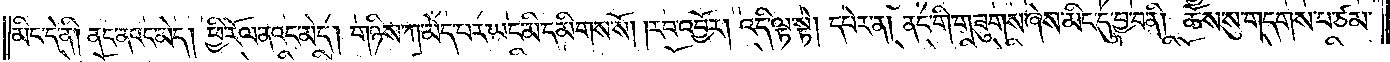མིང་དེ་ནི། ནང་ནའང་མེད། ཕྱི་རོལ་ནའང་མེད། གཉིས་ཀ་མེད་པར་ཡང་མི་དམིགས་སོ། །རབ་འབྱོར། འདི་ལྟ་སྟེ། དཔེར་ན། ནང་གི་གཟུགས་ཞེས་མིང་དུ་བྱ་བ་ནི། ཆོས་སུ་གདགས་པ་ཙམ་
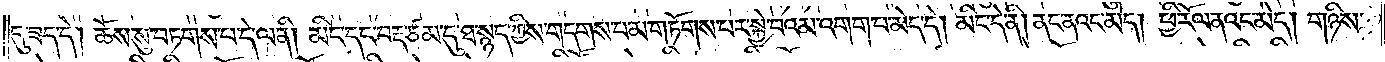དུ་ཟད་དེ། ཆོས་སུ་བཏགས་པ་དེ་ལ་ནི། མིང་དང་བརྡ་ཙམ་དུ་ཐ་སྙད་ཀྱིས་གདགས་པ་མ་གཏོགས་པར་སྐྱེ་བའམ་འགག་པ་མེད་དེ། མིང་དེ་ནི། ནང་ནའང་མེད། ཕྱི་རོལ་ནའང་མེད། གཉིས་
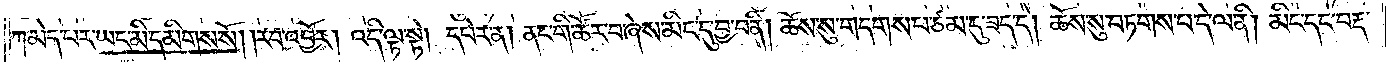ཀ་མེད་པར་ཡང་མི་དམིགས་སོ། །རབ་འབྱོར། འདི་ལྟ་སྟེ། དཔེར་ན། ནང་གི་ཚོར་བ་ཞེས་མིང་དུ་བྱ་བ་ནི། ཆོས་སུ་གདགས་པ་ཙམ་དུ་ཟད་དེ། ཆོས་སུ་བཏགས་པ་དེ་ལ་ནི། མིང་དང་བརྡ་
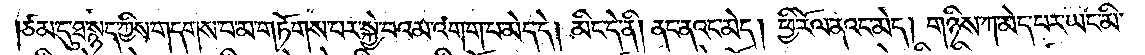ཙམ་དུ་ཐ་སྙད་ཀྱིས་གདགས་པ་མ་གཏོགས་པར་སྐྱེ་བའམ་འགག་པ་མེད་དེ། མིང་དེ་ནི། ནང་ནའང་མེད། ཕྱི་རོལ་ནའང་མེད། གཉིས་ཀ་མེད་པར་ཡང་མི་
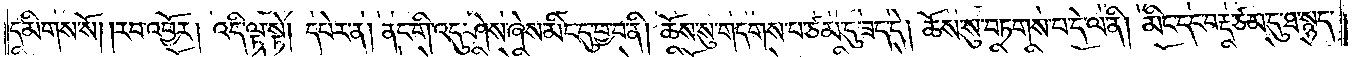དམིགས་སོ། །རབ་འབྱོར། འདི་ལྟ་སྟེ། དཔེར་ན། ནང་གི་འདུ་ཤེས་ཞེས་མིང་དུ་བྱ་བ་ནི། ཆོས་སུ་གདགས་པ་ཙམ་དུ་ཟད་དེ། ཆོས་སུ་བཏགས་པ་དེ་ལ་ནི། མིང་དང་བརྡ་ཙམ་དུ་ཐ་སྙད་
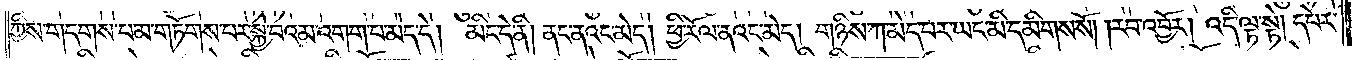ཀྱིས་གདགས་པ་མ་གཏོགས་པར་སྐྱེ་བའམ་འགག་པ་མེད་དེ། མིང་དེ་ནི། ནང་ནའང་མེད། ཕྱི་རོལ་ནའང་མེད། གཉིས་ཀ་མེད་པར་ཡང་མི་དམིགས་སོ། །རབ་འབྱོར། འདི་ལྟ་སྟེ། དཔེར་
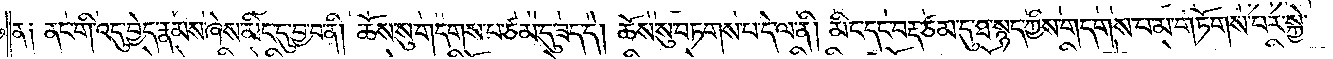ན༑ ནང་གི་འདུ་བྱེད་རྣམས་ཞེས་མིང་དུ་བྱ་བ་ནི། ཆོས་སུ་གདགས་པ་ཙམ་དུ་ཟད་དེ། ཆོས་སུ་བཏགས་པ་དེ་ལ་ནི། མིང་དང་བརྡ་ཙམ་དུ་ཐ་སྙད་ཀྱིས་གདགས་པ་མ་གཏོགས་པར་སྐྱེ་
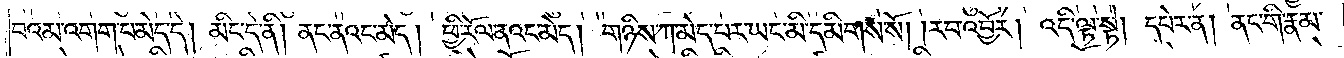བའམ་འགག་པ་མེད་དེ། མིང་དེ་ནི། ནང་ནའང་མེད། ཕྱི་རོལ་ནའང་མེད། གཉིས་ཀ་མེད་པར་ཡང་མི་དམིགས་སོ། །རབ་འབྱོར། འདི་ལྟ་སྟེ། དཔེར་ན། ནང་གི་རྣམ་
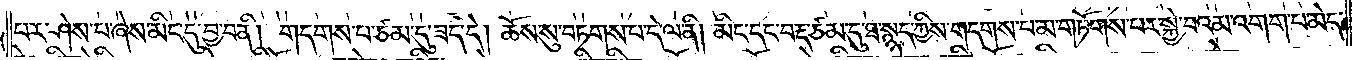པར་ཤེས་པ་ཞེས་མིང་དུ་བྱ་བ་ནི། གདགས་པ་ཙམ་དུ་ཟད་དེ། ཆོས་སུ་བཏགས་པ་དེ་ལ་ནི། མིང་དང་བརྡ་ཙམ་དུ་ཐ་སྙད་ཀྱིས་གདགས་པ་མ་གཏོགས་པར་སྐྱེ་བའམ་འགག་པ་མེད་
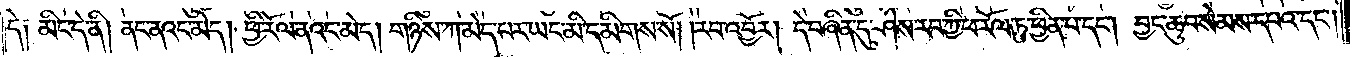དེ༑ མིང་དེ་ནི། ནང་ནའང་མེད། ཕྱི་རོལ་ནའང་མེད། གཉིས་ཀ་མེད་པར་ཡང་མི་དམིགས་སོ། །རབ་འབྱོར། དེ་བཞིན་དུ་ཤེས་རབ་ཀྱི་ཕ་རོལ་ཏུ་ཕྱིན་པ་དང༌། བྱང་ཆུབ་སེམས་དཔའ་དང༌།
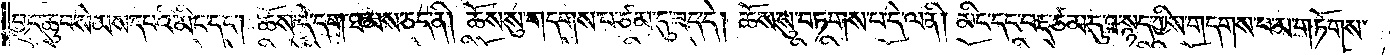བྱང་ཆུབ་སེམས་དཔའི་མིང་དང༌། ཆོས་དེ་དག་ཐམས་ཅད་ནི། ཆོས་སུ་གདགས་པ་ཙམ་དུ་ཟད་དེ། ཆོས་སུ་བཏགས་པ་དེ་ལ་ནི། མིང་དང་བརྡ་ཙམ་དུ་ཐ་སྙད་ཀྱིས་གདགས་པ་མ་གཏོགས་
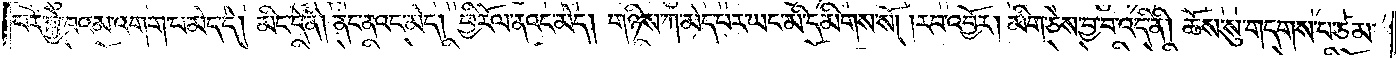པར་སྐྱེ་བའམ་འགག་པ་མེད་དེ། མིང་དེ་ནི། ནང་ནའང་མེད། ཕྱི་རོལ་ནའང་མེད། གཉིས་ཀ་མེད་པར་ཡང་མི་དམིགས་སོ། །རབ་འབྱོར། མིག་ཅེས་བྱ་བ་འདི་ནི། ཆོས་སུ་གདགས་པ་ཙམ་
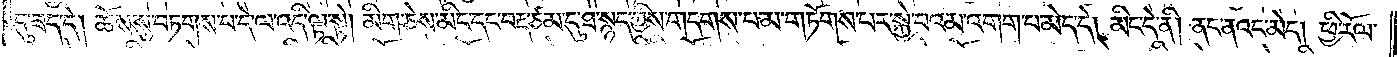དུ་ཟད་དེ། ཆོས་སུ་བཏགས་པ་དེ་ལ་འདི་ལྟ་སྟེ། མིག་ཅེས་མིང་དང་བརྡ་ཙམ་དུ་ཐ་སྙད་ཀྱིས་གདགས་པ་མ་གཏོགས་པར་སྐྱེ་བའམ་འགག་པ་མེད་དེ། མིང་དེ་ནི། ནང་ནའང་མེད། ཕྱི་རོལ་
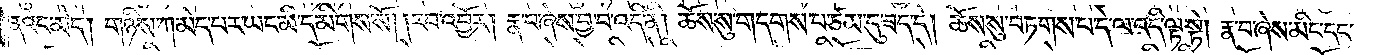ནའང་མེད། གཉིས་ཀ་མེད་པར་ཡང་མི་དམིགས་སོ། །རབ་འབྱོར། རྣ་བ་ཞེས་བྱ་བ་འདི་ནི། ཆོས་སུ་གདགས་པ་ཙམ་དུ་ཟད་དེ། ཆོས་སུ་བཏགས་པ་དེ་ལ་འདི་ལྟ་སྟེ། རྣ་བ་ཞེས་མིང་དང་
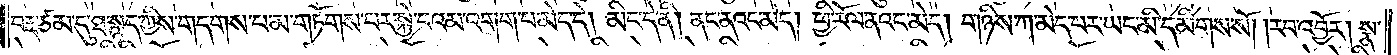བརྡ་ཙམ་དུ་ཐ་སྙད་ཀྱིས་གདགས་པ་མ་གཏོགས་པར་སྐྱེ་བའམ་འགག་པ་མེད་དེ། མིང་དེ་ནི། ནང་ནའང་མེད། ཕྱི་རོལ་ནའང་མེད། གཉིས་ཀ་མེད་པར་ཡང་མི་དམིགས་སོ། །རབ་འབྱོར། སྣ་
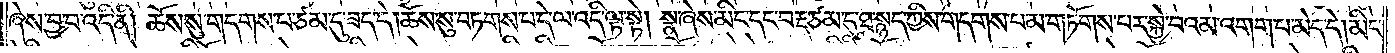ཞེས་བྱ་བ་འདི་ནི། ཆོས་སུ་གདགས་པ་ཙམ་དུ་ཟད་དེ། ཆོས་སུ་བཏགས་པ་དེ་ལ་འདི་ལྟ་སྟེ། སྣ་ཞེས་མིང་དང་བརྡ་ཙམ་དུ་ཐ་སྙད་ཀྱིས་གདགས་པ་མ་གཏོགས་པར་སྐྱེ་བའམ་འགག་པ་མེད་དེ། མིང་
